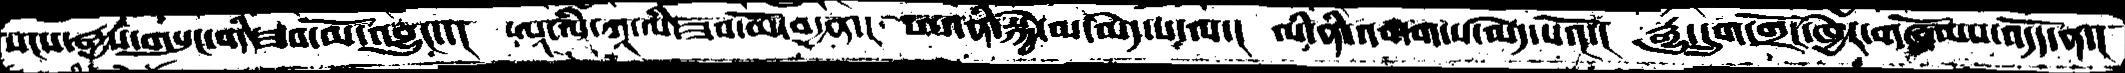སངས་རྒྱས་གསུང་གི་ཟབ་མོ་འབྱུང་་།  ཨཱ་ལི་ཀཱ་ལི་ཟབ་མོ་བདྱན་།  ཨ་ནི་སྐྱེ་མ་མེད་པ་ལ་།  ལི་ནི་འགག་པ་མེད་པའོ་།  རྒྱུ་དྲུག་གྲོང་ཁྱེར་གཞོམས་འདོད་ན་།
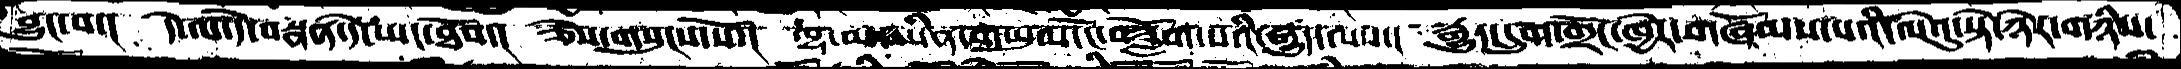བྱུང་བ་།  དེ་ལ་དེ་བསྣན་དེ་ཡང་ཐོབ་།  ཅེས་གསུངས་སོ་།  ལྷ་མ་ཡིན་གཡུལ་ངོ་བཟློག་པའི་རྒྱུད་ལས་།  རྒྱུད་དྲུག་གྲོང་ཁྱེར་གཞོམས་པའི་ལེའུ་སྟེ་ཉེར་གཉིས་
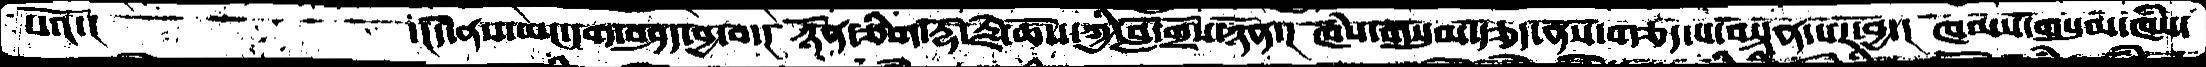པའོ་།      ་།དེ་ནས་ཡང་དག་བཤད་བྱ་བ་།   ཉོན་ཅིག་རྡོ་རྗེ་ཆོས་ཀྱི་བློ་གྲོས་ཉོན་།  ཁཾས་གསུམ་རྩད་ནས་གཅད་པ་བསྟན་པར་བྱ་།  ཁམས་གསུམ་ཁཾས་
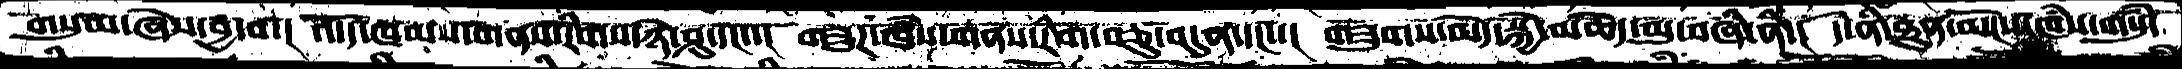གསུམ་ཞེས་བྱ་བ་།  འདོད་ཁམས་གནས་རིགས་ཉེ་ཤུ་དང་།  གཟུཌ་ཁཾས་གནས་རིག་བཅུ་བདུན་དང་།  གཟུགས་མེད་སྐྱེ་མཆེད་མུ་བཞི་ནི་།  དེ་ནི་ཐུན་མོངས་ཁཾས་གསུཾ་
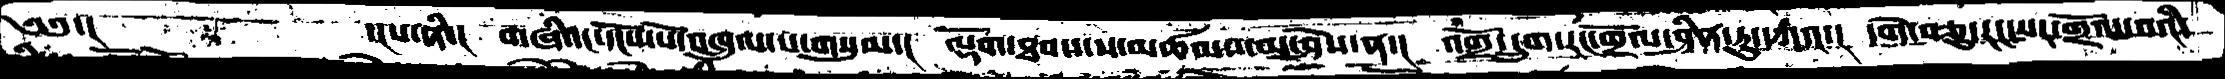༄༅་།     ་།པ་ནི་།  གཞིའང་དངོས་པོ་འཁྲུལ་པ་གསུམ་།  ལྡོག་ཐབས་ས་མཚམས་མ་ཤེས་ན་།  འགྲོ་དྲུག་རང་གྲོལ་ཤིན་ཏུ་དཀའ་།  དགེ་བཅུ་རང་སར་གྲོལ་བའི་
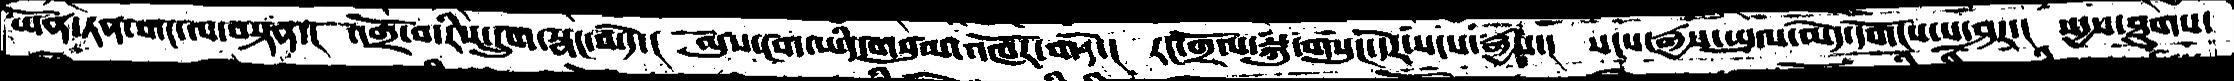ཡོན་ཏན་གང་ལ་བསྟན་།  འགྲོ་བ་རིས་དྲུག་སྣང་བ་དེ་།  ལུས་ངག་ཡིད་གསུམ་འཁོར་བ་དེ་།  རང་གྲོལ་སྐུ་གསུང་དེར་སངས་རྒྱས་།  སངས་རྒྱས་ཡུལ་མེད་དགོངས་པ་ཤར་།  སདྱས་ཐུགས་
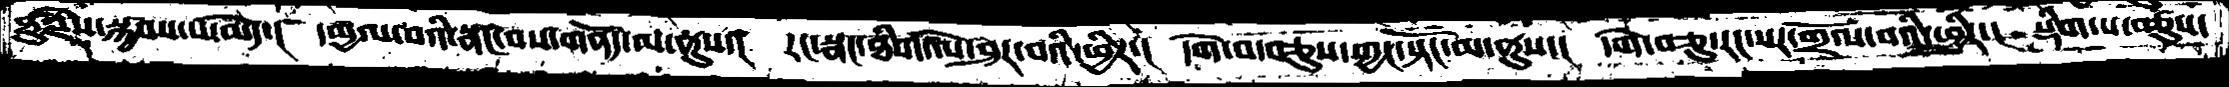ཐུརྗེས་སྐྱབས་པ་མེད་།  དམྱལ་བའི་སྣང་བས་གནོད་ལ་ནུས་།  རང་སྣང་ཐིག་ལེ་ཤར་བའི་ཕྱིར་།  དགེ་བ་བཅུས་ཀྱང་སྟོང་མ་ནུས་།  དགེ་བཅུ་རང་སར་གྲོལ་བའི་ཕྱིར་།  སྡིག་པ་བཅུས་
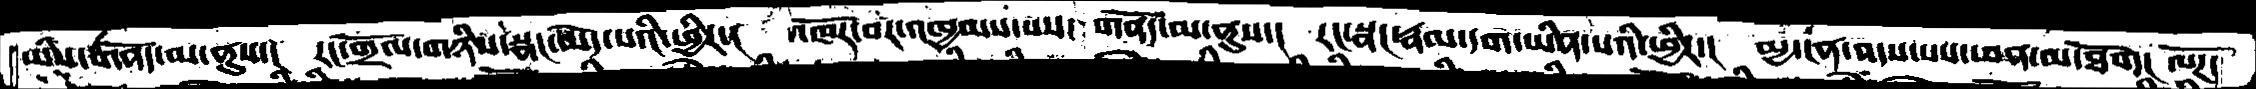ཡིས་གནོད་མ་ནུས་།  རང་གྲོལ་གཉིས་སྣང་མེད་པའི་ཕྱིར་།  འཁོར་བར་འཁྱམས་པས་གནོད་མ་ནུས་།  རང་སྣང་རྣམ་དག་ཡིན་པའི་ཕྱིར་།   མྱ་ངན་འདས་པས་ཕན་མ་ཐོག།  ལོཌ་
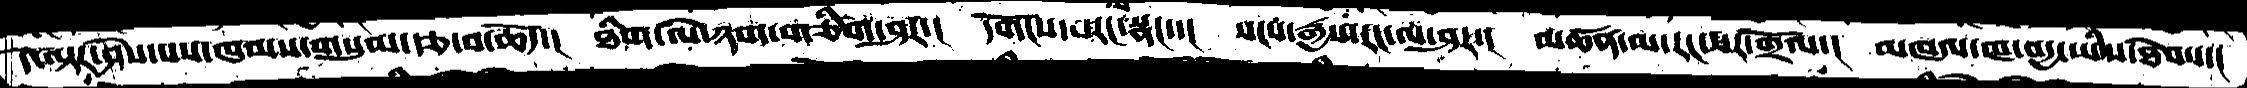དེ་ལྟར་ཤེས་པས་ཁམས་གསུམ་རྩ་བ་ཆོད་།  ཐིག་ལེ་ཉག་གཅིག་ཤར་།  དགོངས་པ་རང་སྣང་་།  སངས་རྒྱས་རང་ལ་ཤར་།  མཚན་མ་རང་སར་གྲོལ་།  མཁའ་ཁ་བདྱ་ཡིས་ཐེབས་།
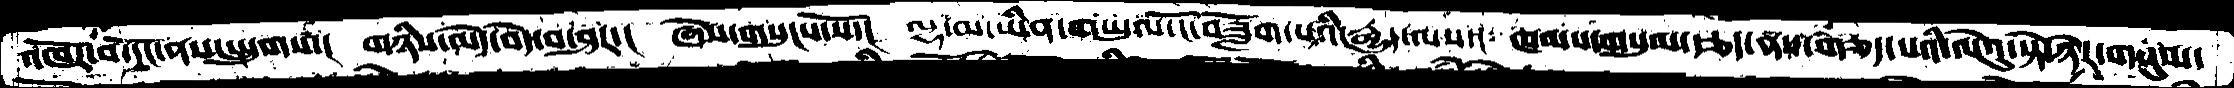འཁོར་བ་དོང་ནས་སྤྲུགས་།  གཉིས་མེད་བདེ་བ་ཤར་།  ཞེས་གསུངས་སོ་།  ལྷ་མ་ཡིན་གཡུལ་ངོ་བཟློག་པའི་རྒྱུད་ལས་།  ཁམས་གསུམ་རྩད་ནས་གཅད་པའི་ལེའུ་སྟེ་ཉེར་གསུམ་
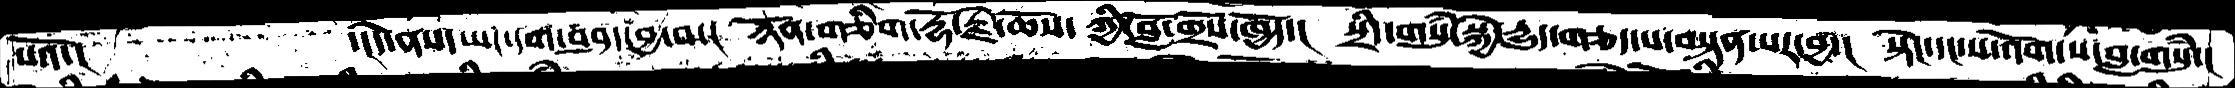པའོ་།      ་།དེ་ནས་ཡང་དག་བཤད་བྱ་བ་།  ཉོན་གཅིག་རྡོ་རྗེ་ཆོས་ཀྱི་བློ་གྲོས་ཁྱོད་།  སྲིད་གསུཾ་སྐྱེ་དྱུད་གཅད་པ་བསྟན་པར་བྱ་།  སྟེང་དང་ས་འོག་ས་བླ་གསུཾ་།
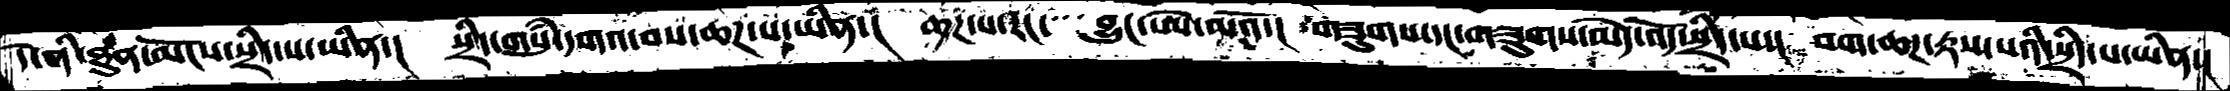དེ་ནི་ཐུན་མོངས་སྲིད་པ་ཡིན་།  སྲིད་གསུཾ་དགའ་བས་ཆཌ་པ་ཡིན་།  ཆཌ་པ་རང་  བྱུང་ཨེ་མའོ་།  གཟུགས་དང་གཟུགས་མེད་འོད་སྲིད་པ་།  བག་ཆཌ་རྟས་པའི་སྲིད་པ་ཡིན་།
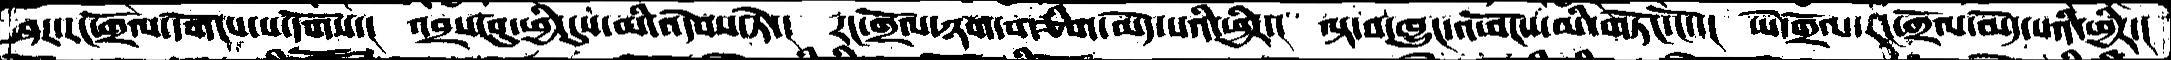ཤར་རང་གྲོལ་དགོངས་པ་དགོས་།  འབྲས་བུ་ཕྱི་དུས་མི་འདེབས་ཏེ་།  རང་གྲོལ་ཉག་གཅིག་མེད་པའི་ཕྱིར་།  ལྟ་བ་ཁྱུང་འཕོངས་མི་གཏོང་ངོ་་།  ཡེ་གྲོལ་རང་གྲོལ་མེད་པའི་ཕྱིར་།
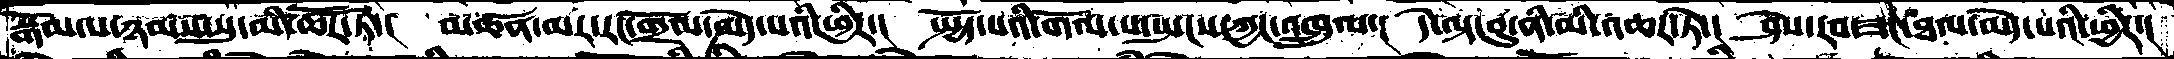སྒོམ་པ་ཉམས་སུ་མི་ཚོར་ཏེ་།  མཚན་མར་རང་གྲོལ་མེད་པའི་ཕྱིར་།  སྤྱོད་པའི་གོལ་ས་སྤངས་ཀྱང་འཁྲུལ་།  དེ་ལྟ་བུ་ནི་མི་འཆར་ཏེ་།  ཤེས་རབ་ཟང་ཐལ་མེད་པའི་ཕྱིར་།
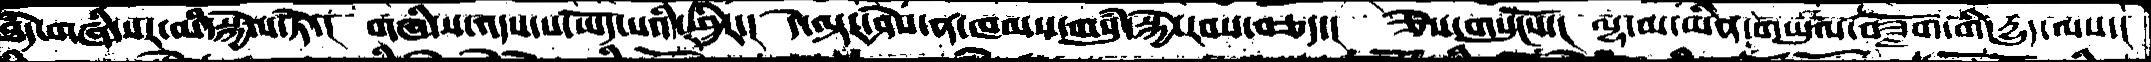ཐཾད་གཞི་སར་མི་སྐྱེལ་ཏེ་།  གཞི་ས་འདས་པ་ཡོད་པའི་ཕྱིར་།  དེ་ལྟར་ཤེས་ན་ཁམས་གསུཾ་སྐྱེ་རབས་བཅད་།  ཅེས་གསུངསོ་།  ལྷ་མ་ཡིན་གཡུལ་བཟློག་གི་དྱུད་ལས་།
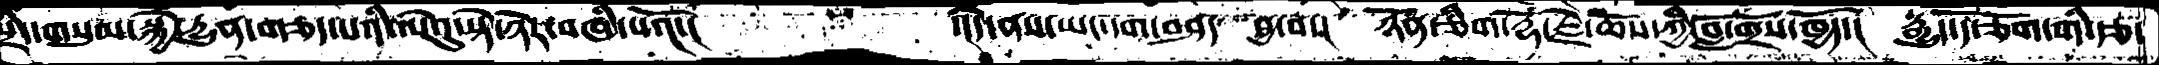སྲིད་གསུམ་སྐྱེ་དྱུན་གཅད་པའི་ལེའུ་སྟེ་ཉེར་བཞི་པའོ་།        ་།དེ་ནས་ཡང་དག་བཤད་བྱ་བས་།  ཉོན་ཅིག་རྡོ་རྗེ་ཆོས་ཀྱི་བློ་གྲོས་ཁྱོད་།  རྒྱུད་དོ་ཅོག་གི་རྩ་
